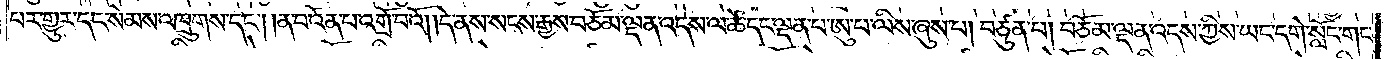པར་གྱུར་དང་སེམས་འཁྲུགས་དང༌། །ན་བ་འོན་པ་འགྲོ་བའོ། །དེ་ནས་སངས་རྒྱས་བཅོམ་ལྡན་འདས་ལ་ཚེ་དང་ལྡན་པ་ཨུ་པ་ལིས་ཞུས་པ། བཙུན་པ། བཅོམ་ལྡན་འདས་ཀྱིས་ཡང་དགེ་སློང་གང་
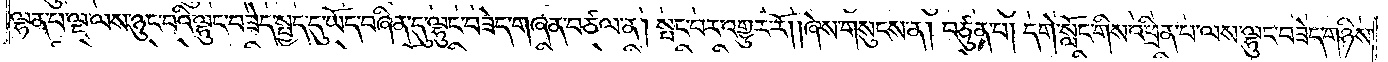ལྷན་པ་ལྔ་ལས་ཉུང་བའི་ལྷུང་བཟེད་སྤྱད་དུ་ཡོད་བཞིན་དུ་ལྷུང་བཟེད་གཞན་བཙལ་ན། སྤང་བར་འགྱུར་རོ། །ཞེས་གསུངས་ན། བཙུན་པ། དགེ་སློང་གིས་འཕྲིན་པ་ལས་ལྷུང་བཟེད་གཉིས་
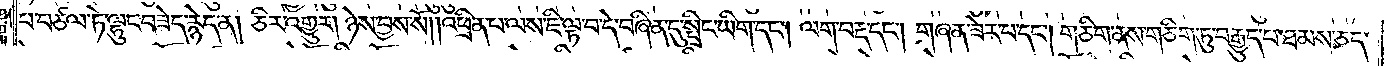པ་བཙལ་ཏེ་ལྷུང་བཟེད་རྙེད་ན། ཅིར་འགྱུར། ཉེས་བྱས་སོ། །འཕྲིན་པ་ལས་ཇི་ལྟ་བ་དེ་བཞིན་དུ་སྤྲིང་ཡིག་དང༌། ལག་བརྡ་དང༌། གཞན་ཟེར་པ་དང༌། གཅིག་ནས་གཅིག་ཏུ་བརྒྱུད་པ་ཐམས་ཅད་
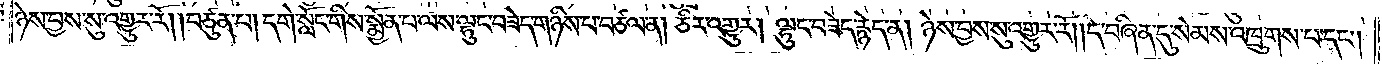ཉེས་བྱས་སུ་འགྱུར་རོ། །བཙུན་པ། དགེ་སློང་གིས་སྨྱོན་པ་ལས་ལྷུང་བཟེད་གཉིས་པ་བཙལ་ན། ཅིར་འགྱུར། ལྷུང་བཟེད་རྙེད་ན། ཉེས་བྱས་སུ་འགྱུར་རོ། །དེ་བཞིན་དུ་སེམས་འཁྲུགས་པ་དང༌།
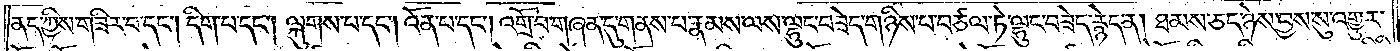ནད་ཀྱིས་གཟིར་བ་དང༌། དིག་པ་དང༌། ལྐུགས་པ་དང༌། འོན་པ་དང༌། འགྲོ་བ་གཞན་དུ་གནས་པ་རྣམས་ལས་ལྷུང་བཟེད་གཉིས་པ་བཙལ་ཏེ་ལྷུང་བཟེད་རྙེད་ན། ཐམས་ཅད་ཉེས་བྱས་སུ་འགྱུར་
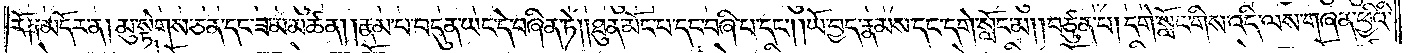རོ། །མདོར་ན། མུ་སྟེགས་ཅན་དང་ཟ་མ་མཚན། །རྣམ་པ་བདུན་ཡང་དེ་བཞིན་ཏེ། །ཐུན་མོང་པ་དང་བཞི་པ་དང༌། །ཡོ་བྱད་རྣམས་དང་དགེ་སློང་མ། །བཙུན་པ། དགེ་སློང་གིས་འདི་ལ་གཞན་ཕྱིའི་
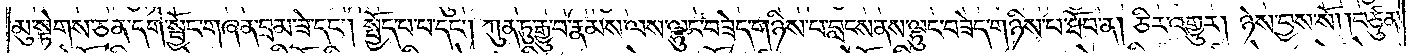མུ་སྟེགས་ཅན་དགེ་སྦྱོང་གཞན་བྲམ་ཟེ་དང༌། སྤྱོད་པ་པ་དང༌། ཀུན་ཏུ་རྒྱུ་བ་རྣམས་ལས་ལྷུང་བཟེད་གཉིས་པ་བླངས་ནས་ལྷུང་བཟེད་གཉིས་པ་ཐོབ་ན། ཅིར་འགྱུར། ཉེས་བྱས་སོ། །བཙུན་
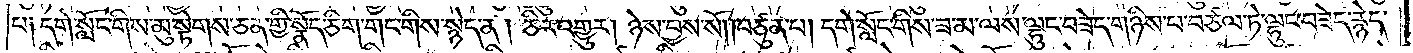པ༑ དགེ་སློང་གིས་མུ་སྟེགས་ཅན་གྱི་སྣོད་ཅིག་གང་གིས་སྙེད་ན། ཅིར་འགྱུར། ཉེས་བྱས་སོ། །བཙུན་པ། དགེ་སློང་གིས་ཟ་མ་ལས་ལྷུང་བཟེད་གཉིས་པ་བཙལ་ཏེ་ལྷུང་བཟེད་རྙེད་
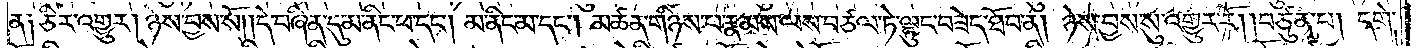ན༑ ཅིར་འགྱུར། ཉེས་བྱས་སོ། །དེ་བཞིན་དུ་མ་ནིང་ཕ་དང༌། མ་ནིང་མ་དང༌། མཚན་གཉིས་པ་རྣམས་ལས་བཙལ་ཏེ་ལྷུང་བཟེད་ཐོབ་ན། ཉེས་བྱས་སུ་འགྱུར་རོ། །བཙུན་པ། དགེ་
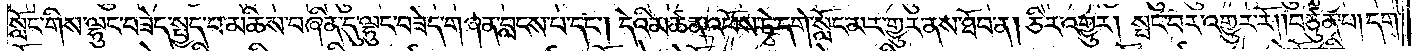སློང་གིས་ལྷུང་བཟེད་སྤྱད་པ་མཆིས་བཞིན་དུ་ལྷུང་བཟེད་གཞན་བླངས་པ་དང༌། དེའི་མཚན་འཕོས་ཏེ་དགེ་སློང་མར་གྱུར་ནས་ཐོབ་ན། ཅིར་འགྱུར། སྤང་བར་འགྱུར་རོ། །བཙུན་པ། དག་
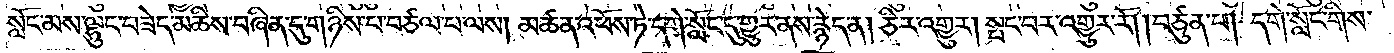སློང་མས་ལྷུང་བཟེད་མཆིས་བཞིན་དུ་གཉིས་པ་བཙལ་པ་ལས། མཚན་འཕོས་ཏེ་དགེ་སློང་དུ་གྱུར་ནས་རྙེད་ན། ཅིར་འགྱུར། སྤང་བར་འགྱུར་རོ། །བཙུན་པ། དགེ་སློང་གིས་
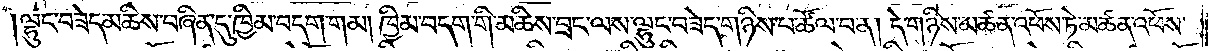ལྷུང་བཟེད་མཆིས་བཞིན་དུ་ཁྱིམ་བདག་གམ། ཁྱིམ་བདག་གི་མཆིས་བྲང་ལས་ལྷུང་བཟེད་གཉིས་པ་ཚོལ་བ་ན། དེ་གཉིས་མཚན་འཕོས་ཏེ་མཚན་འཕོས་
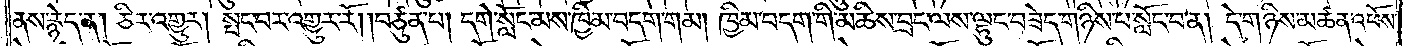ནས་རྙེད་ན། ཅིར་འགྱུར། སྤང་བར་འགྱུར་རོ། །བཙུན་པ། དགེ་སློང་མས་ཁྱིམ་བདག་གམ། ཁྱིམ་བདག་གི་མཆིས་བྲང་ལས་ལྷུང་བཟེད་གཉིས་པ་སློང་བ་ན། དེ་གཉིས་མཚན་འཕོས་
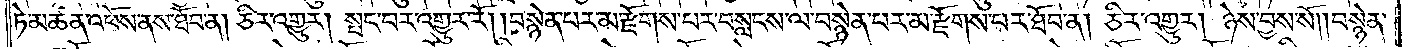ཏེ་མཚན་འཕོས་ནས་ཐོབ་ན། ཅིར་འགྱུར། སྤང་བར་འགྱུར་རོ། །བསྙེན་པར་མ་རྫོགས་པར་བསླངས་ལ་བསྙེན་པར་མ་རྫོགས་པར་ཐོབ་ན། ཅིར་འགྱུར། ཉེས་བྱས་སོ། །བསྙེན་
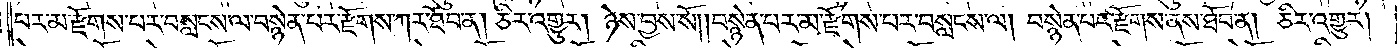པར་མ་རྫོགས་པར་བསླངས་ལ་བསྙེན་པར་རྫོགས་ཀར་ཐོབ་ན། ཅིར་འགྱུར། ཉེས་བྱས་སོ། །བསྙེན་པར་མ་རྫོགས་པར་བསླངས་ལ། བསྙེན་པར་རྫོགས་ནས་ཐོབ་ན། ཅིར་འགྱུར།
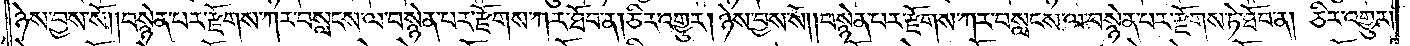ཉེས་བྱས་སོ། །བསྙེན་པར་རྫོགས་ཀར་བསླངས་ལ་བསྙེན་པར་རྫོགས་ཀར་ཐོབ་ན། ཅིར་འགྱུར། ཉེས་བྱས་སོ། །བསྙེན་པར་རྫོགས་ཀར་བསླངས་ལ་བསྙེན་པར་རྫོགས་ཏེ་ཐོབ་ན། ཅིར་འགྱུར་
